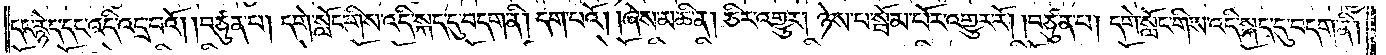དང་རྙེད་དང་འདི་འདྲ་བའོ། །བཙུན་པ། དགེ་སློང་གིས་འདི་སྐད་དུ་བདག་ནི། དག་པའོ། །ཞེས་མཆི་ན། ཅིར་འགྱུར། ཉེས་པ་སྦོམ་པོར་འགྱུར་རོ། །བཙུན་པ། དགེ་སློང་གིས་འདི་སྐད་དུ་བདག་ནི།
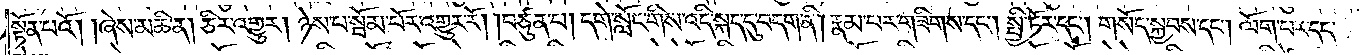སྟོན་པའོ། །ཞེས་མཆི་ན། ཅིར་འགྱུར། ཉེས་པ་སྦོམ་པོར་འགྱུར་རོ། །བཙུན་པ། དགེ་སློང་གིས་འདི་སྐད་དུ་བདག་ནི། རྣམ་པར་གཟིགས་དང༌། སྤྱི་ཏོར་དང༌། གསོད་སྐྱབས་དང༌། ལོག་པ་དང་
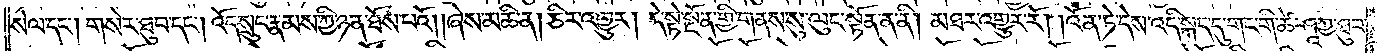སེལ་དང༌། གསེར་ཐུབ་དང༌། འོད་སྲུང་རྣམས་ཀྱི་ཉན་ཐོས་པའོ། །ཞེས་མཆི་ན། ཅིར་འགྱུར། དེ་སྟེ་སྔོན་གྱི་གནས་སུ་ལུང་སྟོན་ན་ནི། མཐར་འགྱུར་རོ། །འོན་ཏེ་དེས་འདི་སྐད་དུ་གང་གི་ཚེ་ཤཱཀྱ་ཐུབ་
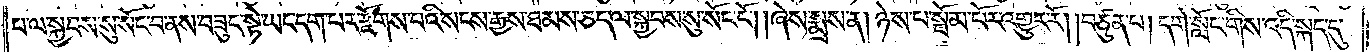པ་ལ་སྐྱབས་སུ་སོང་བ་ནས་བཟུང་སྟེ་ཡང་དག་པར་རྫོགས་པའི་སངས་རྒྱས་ཐམས་ཅད་ལ་སྐྱབས་སུ་སོང་ངོ༌། །ཞེས་སྨྲས་ན། ཉེས་པ་སྦོམ་པོར་འགྱུར་རོ། །བཙུན་པ། དགེ་སློང་གིས་འདི་སྐད་དུ་
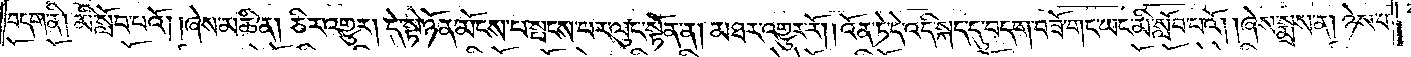བདག་ནི། མི་སློབ་པའོ། །ཞེས་མཆི་ན། ཅིར་འགྱུར། དེ་སྟེ་ཉོན་མོངས་པ་སྤངས་པར་ལུང་སྟོན་ན། མཐར་འགྱུར་རོ། །འོན་ཏེ་དེ་འདི་སྐད་དུ་བདག་བཟོ་གང་ཡང་མི་སློབ་པའོ། །ཞེས་སྨྲས་ན། ཉེས་པ་
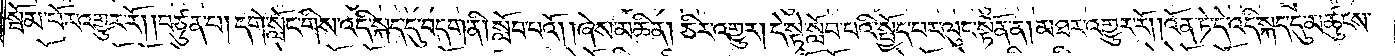སྦོམ་པོར་འགྱུར་རོ། །བཙུན་པ། དགེ་སློང་གིས་འདི་སྐད་དུ་བདག་ནི། སློབ་པའོ། །ཞེས་མཆི་ན། ཅིར་འགྱུར། དེ་སྟེ་སློབ་པའི་སྤྱོད་པར་ལུང་སྟོན་ན། མཐར་འགྱུར་རོ། །འོན་ཏེ་དེ་འདི་སྐད་དུ་མཚུངས་
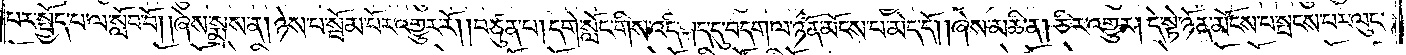པར་སྤྱོད་པ་ལ་སློབ་བོ། །ཞེས་སྨྲས་ན། ཉེས་པ་སྦོམ་པོར་འགྱུར་རོ། །བཙུན་པ། དགེ་སློང་གིས་འདི་སྐད་དུ་བདག་ལ་ཉོན་མོངས་པ་མེད་དོ། །ཞེས་མཆི་ན། ཅིར་འགྱུར། དེ་སྟེ་ཉོན་མོངས་པ་སྤངས་པར་ལུང་
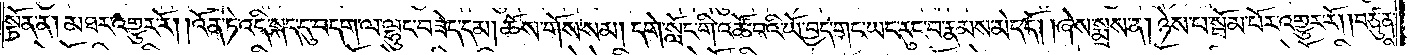སྟོན་ན། མཐར་འགྱུར་རོ། །འོན་ཏེ་འདི་སྐད་དུ་བདག་ལ་ལྷུང་བཟེད་དམ། ཆོས་གོས་སམ། དགེ་སློང་གི་འཚོ་བའི་ཡོ་བྱད་གང་ཡང་རུང་བ་རྣམས་མེད་དོ། །ཞེས་སྨྲས་ན། ཉེས་པ་སྦོམ་པོར་འགྱུར་རོ། །བཙུན་
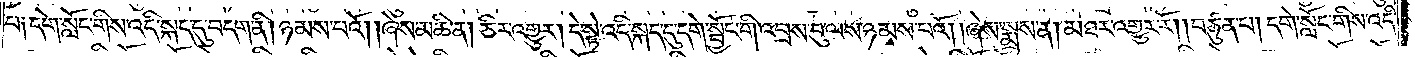པ༑ དགེ་སློང་གིས་འདི་སྐད་དུ་བདག་ནི། ཉམས་པའོ། །ཞེས་མཆི་ན། ཅིར་འགྱུར། དེ་སྟེ་འདི་སྐད་དུ་དགེ་སྦྱོང་གི་འབྲས་བུ་ལས་ཉམས་པའོ། །ཞེས་སྨྲས་ན། མཐར་འགྱུར་རོ། །བཙུན་པ། དགེ་སློང་གིས་འདི་
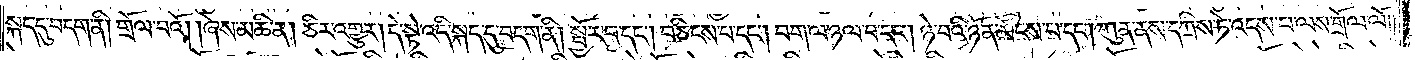སྐད་དུ་བདག་ནི། གྲོལ་བའོ། །ཞེས་མཆི་ན། ཅིར་འགྱུར། དེ་སྟེ་འདི་སྐད་དུ་བདག་ནི། སྦྱོར་བ་དང༌། བཅིངས་པ་དང༌། བག་ལ་ཉལ་བ་དང༌། ཉེ་བའི་ཉོན་མོངས་པ་དང༌། ཀུན་ནས་དཀྲིས་ཏེ་འདས་པ་ལས་གྲོལ་ལོ༎
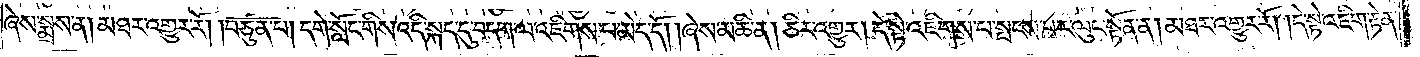ཞེས་སྨྲས་ན། མཐར་འགྱུར་རོ། །བཙུན་པ། དགེ་སློང་གིས་འདི་སྐད་དུ་བདག་ལ་འཇིགས་པ་མེད་དོ། །ཞེས་མཆི་ན། ཅིར་འགྱུར། དེ་སྟེ་འཇིགས་པ་སྤངས་པར་ལུང་སྟོན་ན། མཐར་འགྱུར་རོ། །དེ་སྟེ་འཇིག་རྟེན་
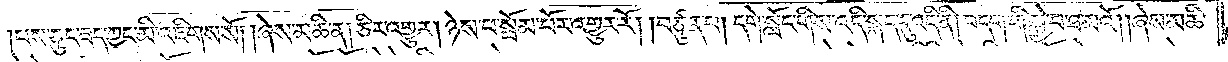།པས་ཅུང་ཟད་ཀྱང་མི་འཇིགས་སོ། །ཞེས་མཆི་ན། ཅིར་འགྱུར། ཉེས་པ་སྦོམ་པོར་འགྱུར་རོ། །བཙུན་པ། དགེ་སློང་གིས་འདི་སྐད་དུ་འདི་ནི། བདག་གི་སྐྱེ་བ་ཐ་མའོ། །ཞེས་མཆི་
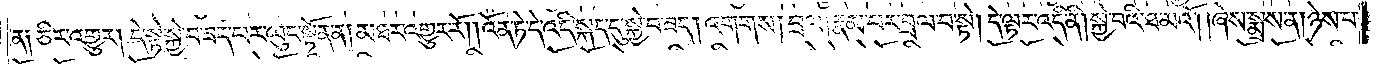ན༑ ཅིར་འགྱུར། དེ་སྟེ་སྐྱེ་བ་ཟད་པར་ལུང་སྟོན་ན། མཐར་འགྱུར་རོ། །འོན་ཏེ་དེ་འདི་སྐད་དུ་སྐྱེ་བ་ཟད། འགགས། བྲལ། རྣམ་པར་བྲལ་བ་སྟེ། དེ་ལྟར་འདི་ནི། སྐྱེ་བའི་ཐ་མའོ། །ཞེས་སྨྲས་ན། ཉེས་པ་
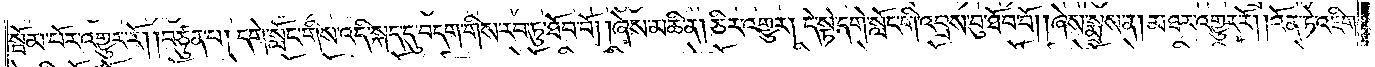སྦོམ་པོར་འགྱུར་རོ། །བཙུན་པ། དགེ་སློང་གིས་འདི་སྐད་དུ་བདག་གིས་རབ་ཏུ་ཐོབ་བོ། །ཞེས་མཆི་ན། ཅིར་འགྱུར། དེ་སྟེ་དགེ་སློང་གི་འབྲས་བུ་ཐོབ་བོ། །ཞེས་སྨྲས་ན། མཐར་འགྱུར་རོ། །འོན་ཏེ་འཇིག་
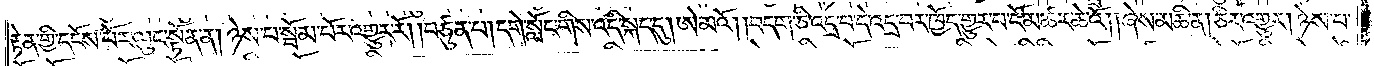རྟེན་གྱི་དངོས་པོར་ལུང་སྟོན་ན། ཉེས་པ་སྦོམ་པོར་འགྱུར་རོ། །བཙུན་པ། དགེ་སློང་གིས་འདི་སྐད་དུ། ཨེ་མའོ། །བདག་ཅི་འདྲ་བ་དེ་འདྲ་བར་ཁྱོད་གྱུར་པ་ངོ་མཚར་ཆེའོ། །ཞེས་མཆི་ན། ཅིར་འགྱུར། ཉེས་པ་
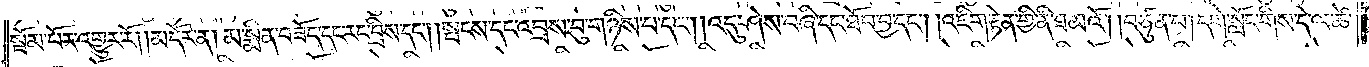སྦོམ་པོར་འགྱུར་རོ། །མདོར་ན། མ་སྨིན་བཟོད་དང་རང་བྲིས་དང༌། །སྤངས་དང་འབྲས་བུ་གཉིས་པ་དང༌། འདུ་ཤེས་བཞི་དང་ཐོབ་བྱ་དང༌། །འཇིག་རྟེན་གྱི་ནི་ཐ་མའོ། །བཙུན་པ། དགེ་སློང་གིས་དེ་ལ་ཚེ་
